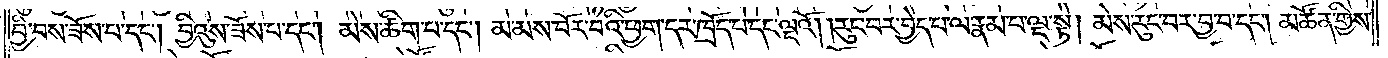བྱི་བས་ཟོས་པ་དང༌། བྱིའུས་ཟོས་པ་དང༌། མེས་ཚིག་པ་དང༌། མ་མས་བོར་བའི་ཕྱག་དར་ཁྲོད་པ་དང་ལྔའོ། །རུང་བར་བྱེད་པ་ལ་རྣམ་པ་ལྔ་སྟེ། མེས་རུང་བར་བྱ་བ་དང༌། མཚོན་གྱིས་
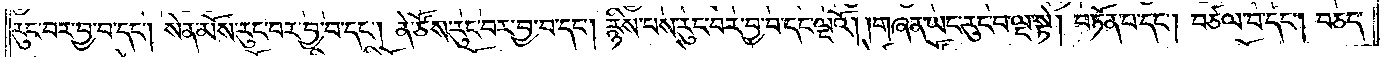རུང་བར་བྱ་བ་དང༌། སེན་མོས་རུང་བར་བྱ་བ་དང༌། ནེ་ཙོས་རུང་བར་བྱ་བ་དང༌། རྙིས་པས་རུང་བར་བྱ་བ་དང་ལྔའོ། །གཞན་ཡང་རུང་བ་ལྔ་སྟེ། བཏོན་པ་དང༌། བཙལ་བ་དང༌། བཅད་
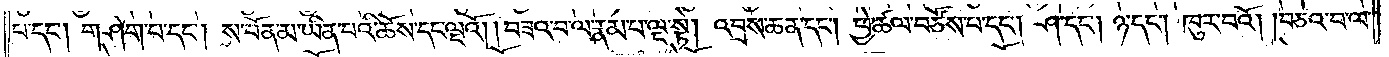པ་དང༌། གཤེག་པ་དང༌། ས་བོན་མ་ཡིན་པའི་ཆོས་དང་ལྔའོ། །བཟའ་བ་ལ་རྣམ་པ་ལྔ་སྟེ། འབྲས་ཆན་དང༌། ཕྱེ་ཚལ་བཙོས་པ་དང༌། ཤ་དང༌། ཉ་དང༌། ཁུར་བའོ། །བཅའ་བ་ལ་
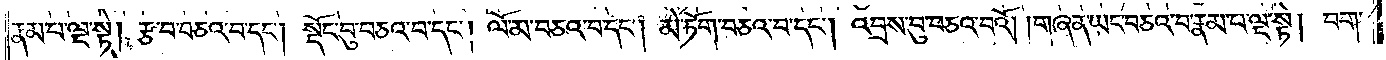རྣམ་པ་ལྔ་སྟེ། རྩ་བ་བཅའ་བ་དང༌། སྡོང་བུ་བཅའ་བ་དང༌། ལོ་མ་བཅའ་བ་དང༌། མེ་ཏོག་བཅའ་བ་དང༌། འབྲས་བུ་བཅའ་བའོ། །གཞན་ཡང་བཅའ་བ་རྣམ་པ་ལྔ་སྟེ། བག་
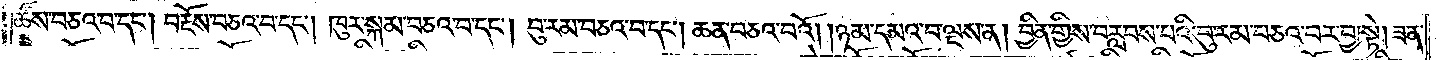ཚོས་བཅའ་བ་དང༌། བརྔོས་བཅའ་བ་དང༌། ཁུར་སྐམ་བཅའ་བ་དང༌། བུ་རམ་བཅའ་བ་དང༌། ཆན་བཅའ་བའོ། །ཉམ་དམའ་བ་ལྔས་ན། བྱིན་གྱིས་བརླབས་པའི་བུ་རམ་བཅའ་བར་བྱ་སྟེ། ཟན་
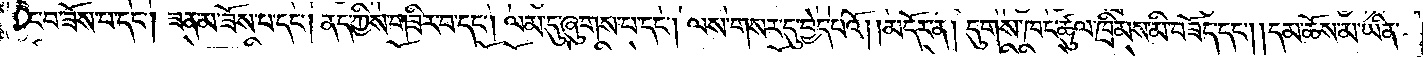ཆུང་བ་ཟོས་པ་དང༌། ཟན་མ་ཟོས་པ་དང༌། ནད་ཀྱིས་གཟིར་བ་དང༌། ལམ་དུ་ཞུགས་པ་དང༌། ལས་གསར་དུ་བྱེད་པའོ། །མདོར་ན། དུགས་ཁང་ཚུལ་ཁྲིམས་མི་བཟོད་དང༌། །དམ་ཆོས་མ་ཡིན་
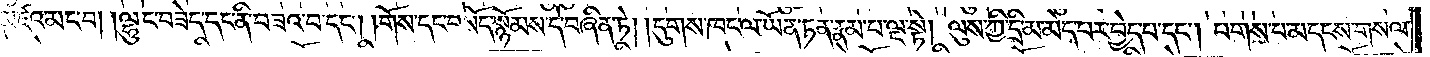མཛའ་མང་བ། །ལྷུང་བཟེད་དང་ནི་བཟའ་བ་དང༌། །གོས་དང་བསོད་སྙོམས་དེ་བཞིན་ཏེ། །དུགས་ཁང་ལ་ཡོན་ཏན་རྣམ་པ་ལྔ་སྟེ། ལུས་ཀྱི་དྲི་མ་མེད་པར་བྱེད་པ་དང༌། པགས་པ་མདངས་གསལ་
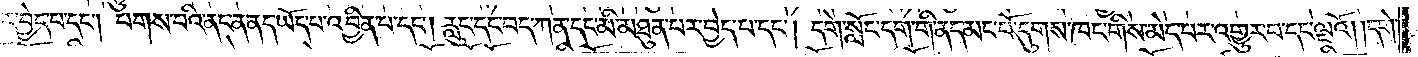བར་བྱེད་པ་དང༌། པགས་པའི་ནང་ན་ནད་ཡོད་པ་འབྱིན་པ་དང༌། རླུང་དང་བད་ཀན་དང་མི་མཐུན་པར་བྱེད་པ་དང༌། དགེ་སློང་དག་གི་ནད་མང་པོ་དུགས་ཁང་གིས་མེད་པར་འགྱུར་བ་དང་ལྔའོ། །དགེ་
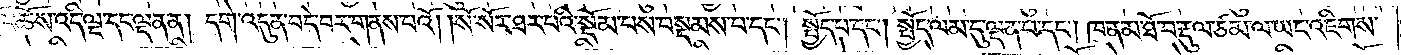སློང་ཆོས་འདི་ལྔ་དང་ལྡན་ན། དགེ་འདུན་བདེ་བར་གནས་པའོ། །སོ་སོར་ཐར་པའི་སྡོམ་པས་བསྡམས་པ་དང༌། སྤྱོད་པ་དང༌། སྤྱོད་ལམ་དུ་ལྡན་པ་དང༌། ཁ་ན་མ་ཐོ་བ་རྡུལ་ཙམ་ལ་ཡང་འཇིགས་
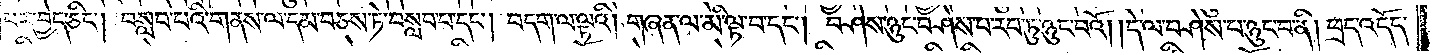པར་བྱེད་ཅིང༌། བསླབ་པའི་གནས་ལ་དམ་བཅས་ཏེ་བསླབ་པ་དང༌། བདག་ལ་ལྟའི། །གཞན་ལ་མི་ལྟ་བ་དང༌། བཤེས་ཉུང་བཤེས་པ་རབ་ཏུ་ཉུང་བའོ། །དེ་ལ་བཤེས་པ་ཉུང་བ་ནི། ཕྲད་འདོད་
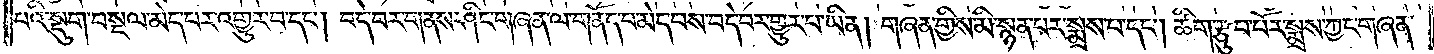པའི་སྡུག་བསྔལ་མེད་པར་འགྱུར་བ་དང༌། བདེ་བར་གནས་ཤིང་གཞན་ལ་གནོད་པ་མེད་པས་བདེ་བར་གྱུར་པ་ཡིན། གཞན་གྱིས་མི་སྙན་པར་སྨྲས་པ་དང༌། ཚིག་རྩུབ་པོར་སྨྲས་ཀྱང་གཞན་
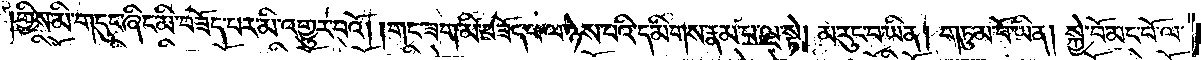གྱིས་མི་གདུང་ཞིང་མི་བཟོད་པར་མི་འགྱུར་བའོ། །གང་ཟག་མི་བཟོད་པ་ལ་ཉེས་པའི་དམིགས་རྣམ་པ་ལྔ་སྟེ། མ་རུང་བ་ཡིན། གཏུམ་པོ་ཡིན། སྐྱེ་བོ་མང་པོ་ལ་
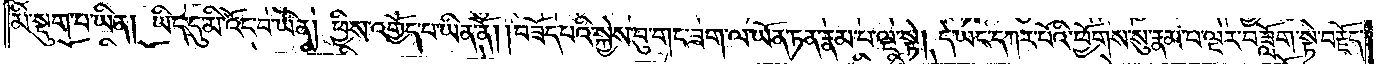མི་སྡུག་པ་ཡིན། ཡིད་དུ་མི་འོང་བ་ཡིན། ཕྱིས་འགྱོད་པ་ཡིན་ནོ། །བཟོད་པའི་སྐྱེས་བུ་གང་ཟག་ལ་ཡོན་ཏན་རྣམ་པ་ལྔ་སྟེ། དེ་ཡང་དཀར་པོའི་ཕྱོགས་སུ་རྣམ་པ་ལྔར་བཟློག་སྟེ་བརྗོད་
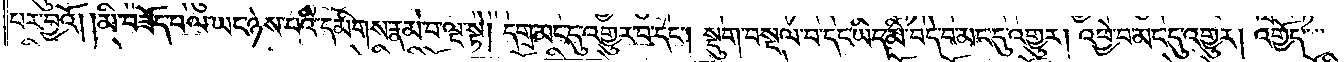པར་བྱའོ། །མི་བཟོད་པ་ལ་ཡང་ཉེས་པའི་དམིགས་རྣམ་པ་ལྔ་སྟེ། དགྲ་མང་དུ་འགྱུར་བ་དང༌། སྡུག་བསྔལ་བ་དང་ཡིད་མི་བདེ་བ་མང་དུ་འགྱུར། འཕྱེ་བ་མང་དུ་འགྱུར། འགྱོད་
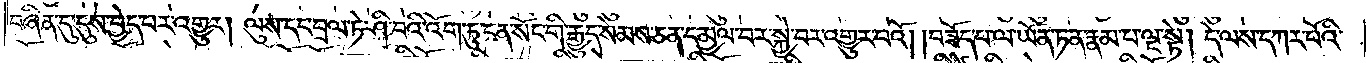བཞིན་དུ་དུས་བྱེད་པར་འགྱུར། ལུས་དང་བྲལ་ཏེ་ཤི་བའི་འོག་ཏུ་ངན་སོང་གི་རྒྱུད་སེམས་ཅན་དམྱལ་བར་སྐྱེ་བར་འགྱུར་བའོ། །བཟོད་པ་ལ་ཡོན་ཏན་རྣམ་པ་ལྔ་སྟེ། དེ་ལས་དཀར་པོའི་
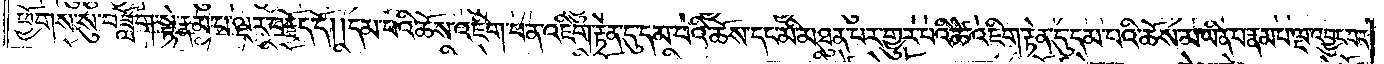ཕྱོགས་སུ་བཟློག་སྟེ་རྣམ་པ་ལྔར་བརྗོད་དོ། །དམ་པའི་ཆོས་འཇིག་པ་ན་འཇིག་རྟེན་དུ་དམ་པའི་ཆོས་དང་མི་མཐུན་པར་གྱུར་པའི་ཚེ་འཇིག་རྟེན་དུ་དམ་པའི་ཆོས་མ་ཡིན་པ་རྣམ་པ་ལྔ་འབྱུང་བར་
